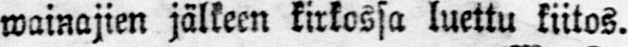wainajien jälkeen kirkossa luettu kiitos.
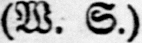(W S.)
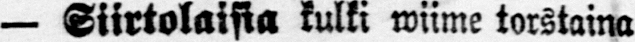— Siirtolaisia kulki wiime torstaina
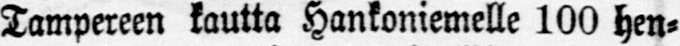Tampereen kautta Hankoniemelle 100 hen-
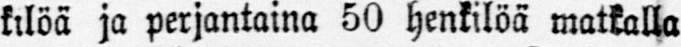kilöä ja perjantaina 50 henkilöä matkalla
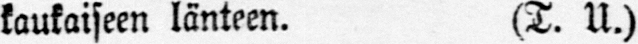kaukaiseen länteen. (T. U.)
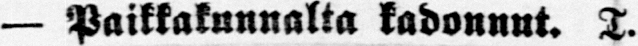— Paikkakunnalta kadonnut. T.
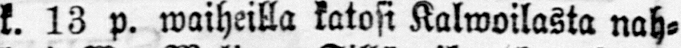k. 13 p. waiheilla katosi Kalwoilasta nah-
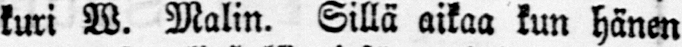kuri W. Malin. Sillä aikaa kun hänen
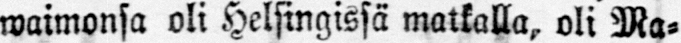waimonsa oli Helsingissä matkalla, oli Ma-
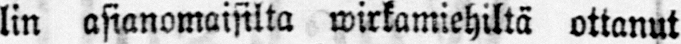lin asianomaisilta wirkamiehiltä ottanut
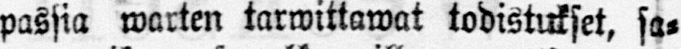passia warten tarwittawat todistukset, sa-
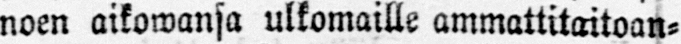noen aikowansa ulkomaille ammattitaitoan-
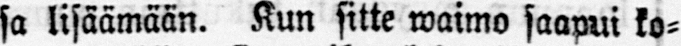sa lisäämään. Kun sitte waimo saapui ko-
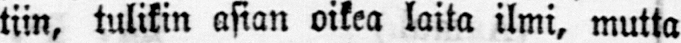tiin, tulikin asian oikea laita ilmi, mutta
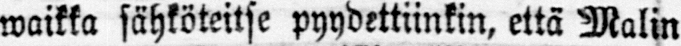waikka sähköteitse pyydettiinkin, että Malin
